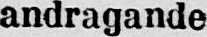andragande
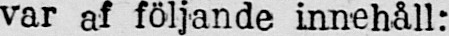var af följande innehåll:
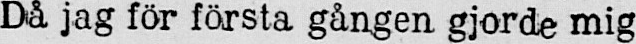Då jag för första gången gjorde mig
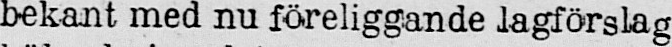bekant med nu föreliggande lagförslag
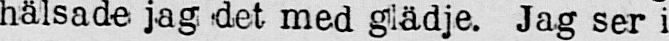hälsade jag det med glädje. Jag ser i
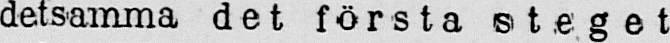detsamma det första steget
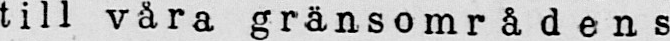till våra gränsområdens
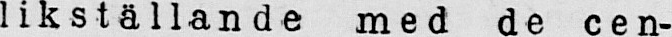likställande med de cen-
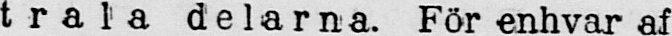trala delarna. För enhvar af
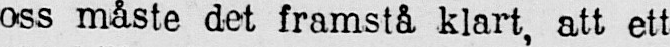oss måste det framstå klart, att ett
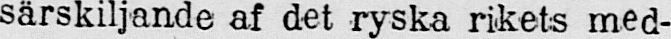särskiljande af det ryska rikets med-
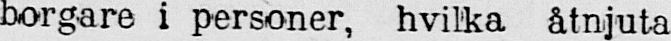borgare i personer, hvilka åtnjuta
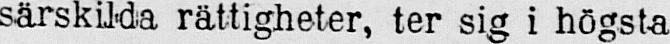särskilda rättigheter, ter sig i högsta
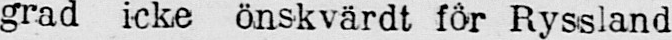grad icke önskvärdt för Ryssland
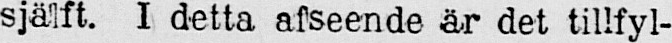själft. I detta afseende är det tillfyl-
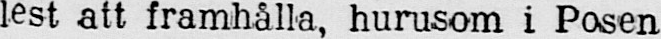lest att framhålla, hurusom i Posen
